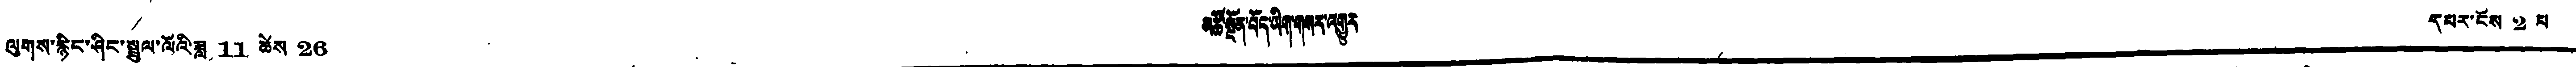ལུགས་རྙིང་ཤིང་སྦྲུལ་ལོའི་ཟླ 11 ཚེས་ 26 མཚོ་སྔོན་བོད་ཡོག་གསར་གྱུར། དཔར་ངོས་ 2 པ
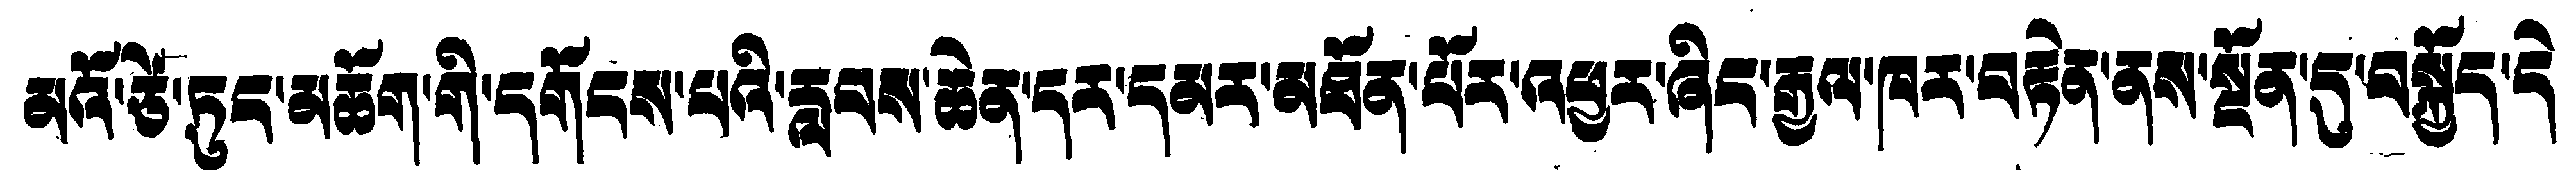མའོ་ཙེ་ཏུང་མཆོག་གི་དགོངས་པའི་རླབས་ཆེན་དར་དམར་མཐོན་པོར་འཕྱར་ཞིང་རྒྱལ་ཁར་བརྟེན་ནས་སྔོན་དུ་བསྐྱོད་དེ་
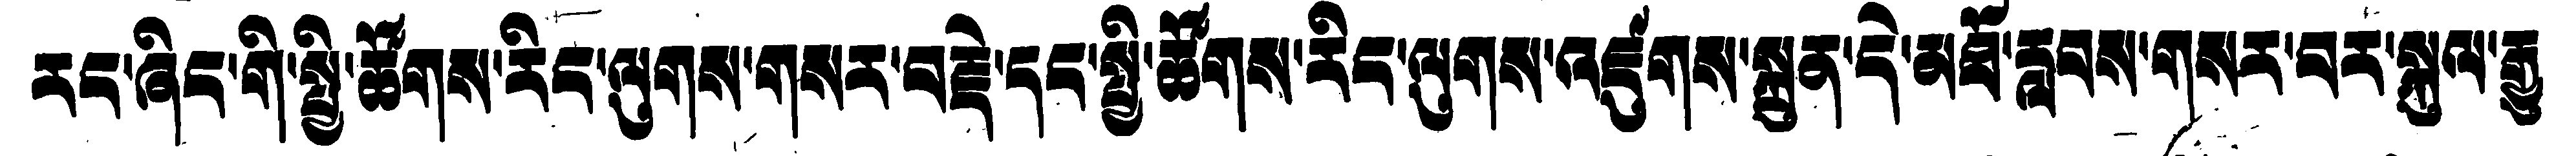རང་ཞིང་གི་སྤྱི་ཚོགས་རིང་ལུགས་གསར་བརྗེ་དང་སྤྱི་ཚོགས་རིང་ལུགས་འཛུགས་སྐྲུན་དེ་མཐོ་རླབས་གསར་བར་སྐུལ་རྒྱུ།
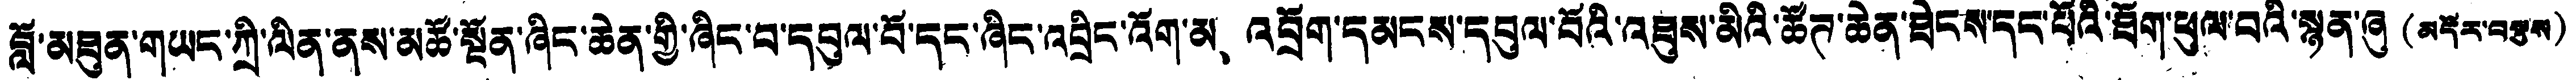བློ་མཐུན་གཡང་ཀྲི་ལིན་ནས་མཚོ་སྔོན་ཞིང་ཆེན་གྱི་ཞིང་བ་དབུལ་བོ་དང་ཞིང་འབྲིང་འོག་མ འབྲོག་དམངས་དབུལ་བོའི་འཐུས་མིའི་ཚོཊ་ཆེན་ཐེངས་དང་པོའི་ཐོག་ཕུལ་བའི་སྙན་ཞུ (མདོར་བསྡུས)
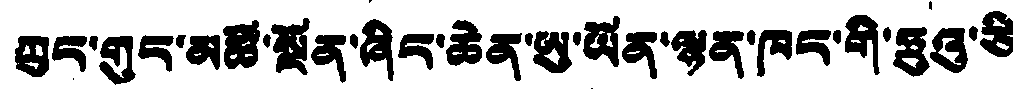ཀྲུར་གུང་མཚོ་སྔོན་ཞིང་ཆེན་ཨུ་ཡོན་ལྷན་ཁང་གི་ཧྲུའུ་ཅི་
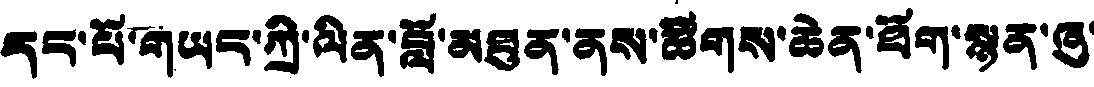དང་པོ་གཡང་ཀྲི་ལིན་བློ་མཐུན་ནས་ཚོགས་ཆེན་ཕོག་སྙན་ཞུ་
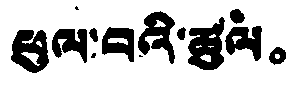ཕུལ་བའི་ཚུལ。
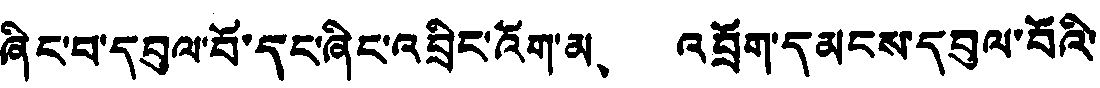ཞིང་བ་དབུལ་བོ་དང་ཞིང་འབྲིང་འོག་མ、 འབྲོག་དམངས་དབུལ་བོའི་
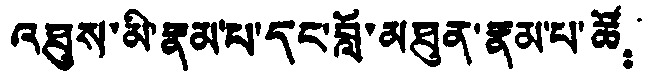འཐུས་མི་རྣམ་པ་དང་བློ་མཐུན་རྣམ་པ་ཚོ：
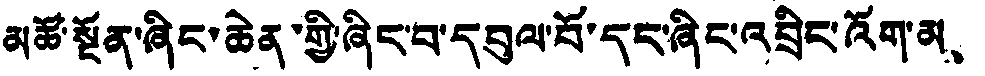མཚོ་སྔོན་ཞིང་ཆེན་གྱི་ཞིང་བ་དབུལ་བོ་དང་ཞིང་འབྲིང་འོག་མ、
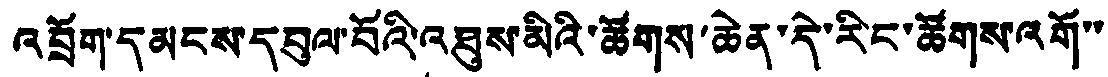འབྲོག་དམངས་དབུལ་བོའི་འཐུས་མིའི་ཚོགས་ཆེན་དེ་རིང་ཚོགས་འགོ་་
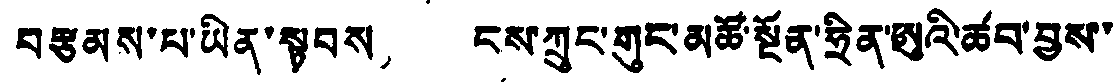བརྩམས་པ་ཡིན་སྟབས， ངས་ཀྲུང་གུང་མཚོ་སྔོན་ཧྲིན་ཨུའི་ཚབ་བྱས་་
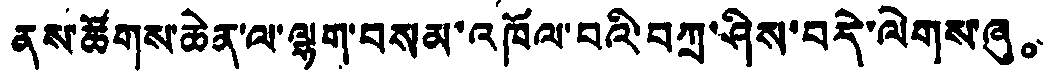ནས་ཚོགས་ཆེན་ལ་ལྷག་བསམ་འཁོལ་བའི་བཀྲ་ཤིས་བདེ་ལེགས་ཞུ。
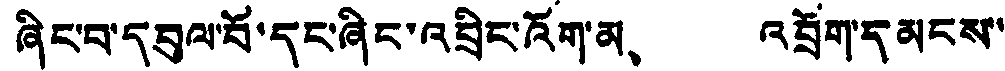ཞིང་བ་དབུལ་བོ་དང་ཞིང་འབྲིང་འོག་མ、 འབྲོག་དམངས་
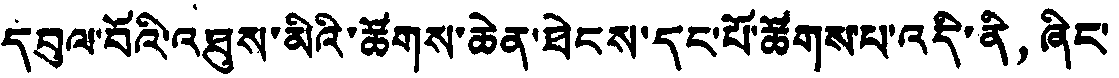དབུལ་བོའི་འཐུས་མིའི་ཚོགས་ཆེན་ཐེངས་དང་པོ་ཚོགས་པ་འདི་ནི，ཞིང་
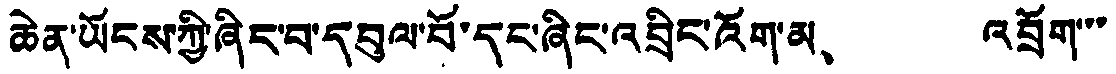ཆེན་ཡོངས་ཀྱི་ཞང་བ་དབུལ་བ་དང་ཞིང་འབྲུང་འག་མ、 འབྲུག་་་
